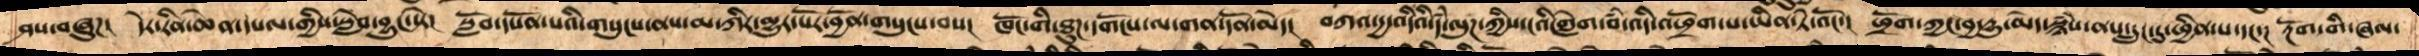ཤས་བཞུཌ།  དེར་རིནཆེན་དཔལ་གྱིས་སླེབ་བྱུང་སྟེ།  སློབ་དཔོན་པའི་གསུངས་ནས་མ་ཀིར་མྱུར་པོར་བྱོན་གསུངས་བས།  ཁོང་གི་ཐུཌ་དགོངས་ལ་གན་དོན་མེད།  བཀའ་དྱ་འདིའི་དཾ་ལུཌ་ཀྱིས་ངའི་གླེགས་བཾ་འདི་འཕྲོག་པ་ཡིན་ཏེ་འོང་།  ཕྲོག་ཀྱང་བྱ་དྱུ་མེད་སྙཾ་ནས་དྲུང་དུ་ཕྱིན་པ་དང་།  རྔོག་གི་ཞལ་
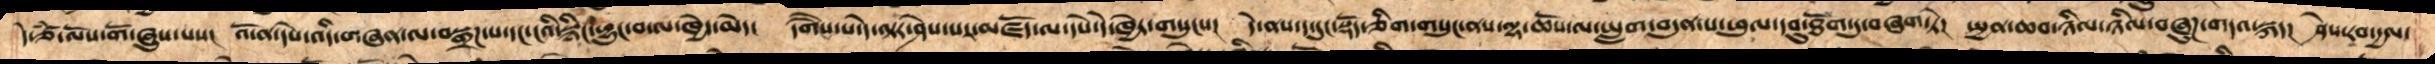དེ་ཙཾ་ལོས་གོ་ཞུས་པས།  འོ་ན་དཔེ་འདི་གཞན་ལ་བསྒྲཌ་པ་དང་ངའི་སྙིང་ཕྱུང་བ་ལ་ཁྱེད་མེད།  དགཻས་པ་དེ་ལྟར་ཤེས་པར་མཛོད་ལ་དཔེ་དེ་ཁྱེར་གསུངས།  དེ་ནས་ད་དུང་སྡོད་ཅིག་གསུངས་ནས་ལྷ་ཆོས་ལ་ཡླག་བདུན་པ་ཕུལ་དབུ་ཐོག་དུ་བཞག་ཏེ།  སྤྱན་ཆབ་ཉིལ་ཉིལ་བཞུཌ་གདའ་སྐད།  ཤེས་རབ་དྱལ་
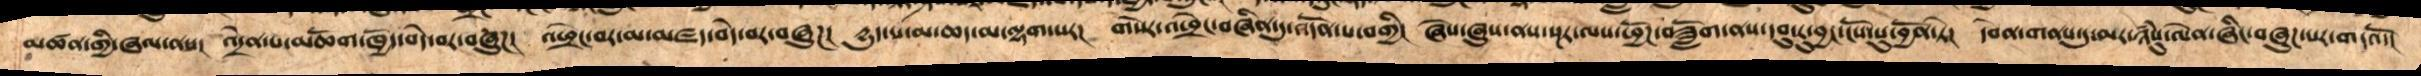མཚན་གྱི་ཞལ་ནས།  འདྲེན་པ་མཆོག་ཁྱོད་བདེ་བར་བཞུཌ།  འཕྲེང་བར་མ་མཛད་བདེ་བར་བཞུཌ།  དྱུད་པ་མ་ཆད་མ་ལྷག་པར།  གསེར་འཕྲེང་བཞིན་དུ་འདོན་པ་བགྱི།  ཞེས་ཞུས་ནས་སྔར་ལས་ཕྱོཌ་བཟློག་ནས་དབུ་རུ་བྱང་ངོས་སུ་བྱོན་ཏེ།  དབེན་གནས་དུ་མར་ཉཾསུ་ལེན་ཞིང་བཞུཌ་པར་གདའོ་།
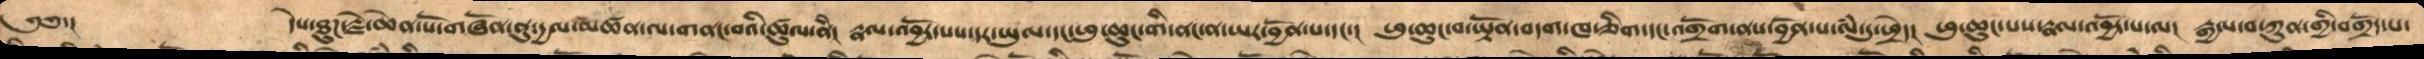༄༅་།        དེས་ཐུཌ་རྗེ་ཆེན་པོ་གཞོན་ནུ་དྱལ་མཚན་ལ་གནང་བའི་ཚུལ་ནི།  རྣལ་འབྱོར་པས་དར་ཡུལ་དང་ཕུ་ཆུང་གི་ནང་ན་ཡར་བྱོན་པ་དང་།   ཕུ་ཆུང་བ་ཡྟོན་བདག་ཁ་ཅིག་དང་འགྲོག་ནས་བྱོན་པ་ལཾ་དུ་ཕྲེད།  ཕུ་ཆུང་པས་རྣལ་འབྱོར་པ་ལ།  རྒྱལ་བ་ཀུན་གྱི་བགྲོད་པ་
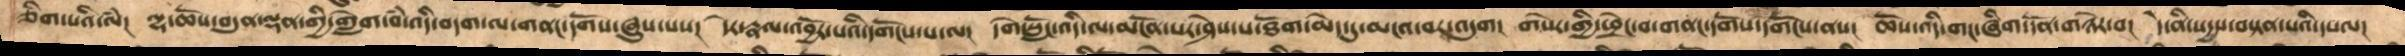ཅིག་པའི་ལཾ།  ལྷ་ཆོས་བདུན་ལྡན་གྱི་གླེག་བཾ་འདི་བདག་ལ་གནང་དགོས་ཞུས་པས།  དེར་རྣལ་འབྱོར་པའི་དགོངས་པ་ལ།  དགེ་སློང་འདི་ལ་མངོན་པར་ཤེས་པ་ཐོག་མེད་དུ་མངའ་བར་འདུག།  གསེར་གྱི་ཕྲེང་བ་གནང་དགོས་དགོངས་ནས།  ཆོས་འདི་གང་ཞིག་དོན་གཉེར་བ།  དེ་ནི་སདྱས་བསྟན་པའི་དཔལ།
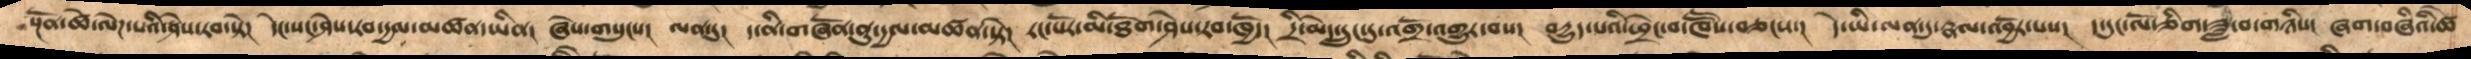སྔོན་ཚེ་ལེཌ་པའི་ཤེས་རབ་སྟེ།  དེང་སང་ཤེས་རབ་དྱལ་མཚན་ཡིན།  ཞེས་གསུངས།  ལན་དུ།  ད་ནི་གཞོན་ནུ་དྱལ་མཚན་ཏེ།  རང་པོར་མི་ཐོག་ཤེས་རབ་ཁྱོད།  དྲི་མེད་དྲུང་དུ་འགྲོ་འགྱུར་བས།  བདྱུད་པའི་ཕྲེང་བ་ཁཽས་བཅངས་།  དེ་ཡི་ལན་དུ་རྣལ་འབྱོར་པས།  ད་དུང་ལོ་ཅིག་ཟླ་བ་གཉིས།  ཞག་བཞིའི་ཚེ་
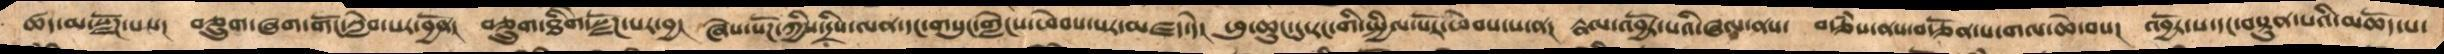ཚད་མ་སྫོཌ་པས།  བཅྲུག་ཞག་གོང་སླེབ་པར་བྱོན།  བཅྲུག་ཐིག་ལེ་སྫོཌ་པར་བྱ།  ཞེས་སོཌ་ཀྱི་དྲིས་ལན་དང་གསུང་གླེངས་ཕེབས་པར་མཛད་དེ།  ཕུ་ཆུང་དུ་རང་གི་སྤྱིལ་པོར་ཕེབས་པ་ན།  རྣལའབྱོར་པའི་ཞལ་ནས།  བརྩཾས་ནས་བརྩོན་པ་གལ་ཆེ་བས།  འབྱོར་པ་དང་བསྟུན་པའི་མཆོད་པ་
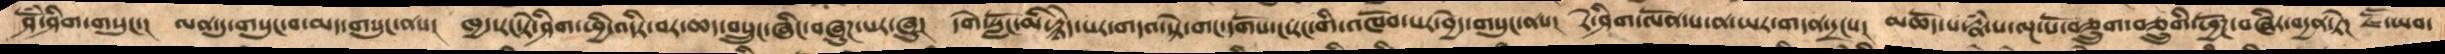ཤོཾ་ཤིག་གསུངས།  ལན་དུ་གསུང་བ་མད་གསུངས་ནས།  ཁྱེད་རང་རེ་ཤིག་ཕྱི་འདིར་བར་ཆད་བསྲུང་ཞིང་བཞུཌ་པར་ཞུ།  དགེ་སློང་མི་རྙེད་པར་གདའ་སྟེ་གང་དགོས་ང་རང་གིས་འཁོབ་པར་བྱེད་གསུངས་ནས།  རེ་ཞིག་ལོན་པ་ན་ཡར་གདན་དྲངས།  མཆོད་པ་རྣཾ་པ་ལྔ་པོ་བཅྲུག་བཅྲུགི་ཕྱོཌ་བཞིར་བདྱན་ཏེ།  ཇཽ་ཡབ་
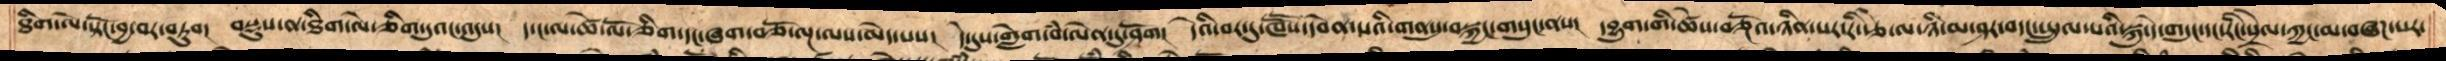ཐིག་ལེ་སྟོང་བྱ་བར་བཏུབ།  བསྡུས་ན་ཐིག་ལེ་ཅིག་དུའང་འདུས།  ད་ང་ལ་ཚེ་ལོ་ཅིག་དང་ཞག་བཅོ་ལྔ་ལས་མེད་པས།  དེ་དུས་གླེག་བཾ་ལེན་དུ་ཤོག  དེའི་བར་དུ་ཁཽས་དབེན་པའི་གནསུ་བསྐྱང་གསུང་ནས།  དབྱུག་གི་ཚེས་བཅྔོའ་ཉིན་པར་རི་རྩེ་ལ་ཉི་མ་ཤར་བ་དང་སྤྲུལ་པའི་སྐུ་དེ་གདུང་དང་རིང་སྲེལ་ཀྱང་མ་བཞཌ་པར་
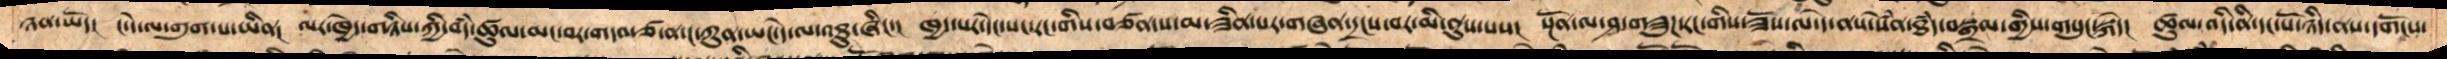ཉན་ཡོད།  ང་དེ་ལ་གུག་པ་ཡིན།  ལར་ཁྱེད་གཉིས་ཀྱི་བདཾ་ཚུལ་མང་བར་གདའ་ཙ་ན་ཀུན་ཡང་དེ་ལ་འཐུ་ཞིང་།  ཁྱད་པར་དེང་སང་རང་གིས་བཙན་ས་མ་ཟིན་པར་གཞན་དྲངས་བར་མི་ནུས་པས།  སྔོན་ལ་ཤ་གཟུཌ་རང་གིས་ཟོས་ལ་དེ་ནས་སེནཾ་ཐཾད་བསྒྲལ་གྱིས་གསུང་སྐདེ།   ཚུལ་འདི་ནི་དང་པོ་ཉིད་ནས་དགོངས་
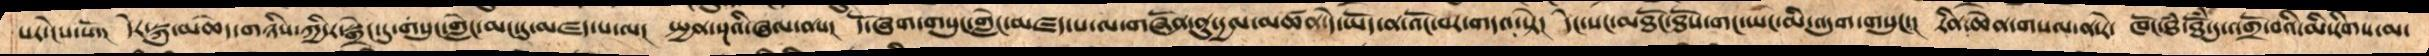པར་ངེས་སོ།  དེར་སྐུ་མཆེད་གཉིས་ཀྱི་ར་སྒྲེང་དུ་གསུང་གླེང་མང་དུ་མཛད་པ་ལ།  སྤྱན་སྔའི་ཞལ་ནས།  དོ་ཞག་གསུང་གླེང་མཛད་པ་ལ་གཞོན་ནུ་དྱལ་མཚན་དེ་ཡོད་ན་འོང་བར་གདའ་སྟེ།  དེང་སང་མཐོང་ཐོས་གང་ཡང་མི་འདུག་གསུང་།  རིན་ཆེན་གསལ་ན་རེ་  ཁོང་ཐཾ་ཐོཾ་དུ་འགྲོ་བའི་མི་རིགས་མ་
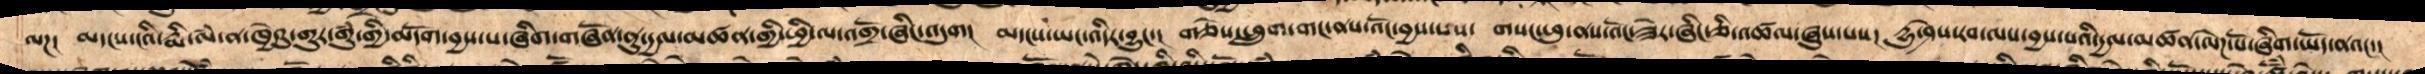ལཌ།  མདངས་ངའི་རྨི་ལཾ་ན་ཁྱེའུ་གུར་གུཾ་གྱི་མདོག་བྱས་པ་ཞིག་གཞོན་ནུ་དྱལ་མཚན་གྱི་ཕྱི་ལ་འགྲོ་ཞིང་འདུག།  མདངས་ཡང་འདིར་བྱུང་།  གཅེས་ཕྲུག་གང་ནས་འོང་བྱས་པས།  གསང་ཕུ་ནས་འོང་ཟེར་ཞིང་ཅི་འཚལ་ཞུས་པས།  དྱུ་ཤེས་རབ་ལས་བྱས་པའི་དྱལ་མཚན་ལེཌ་པོ་ཞིག་ཡོད་ནའང་།
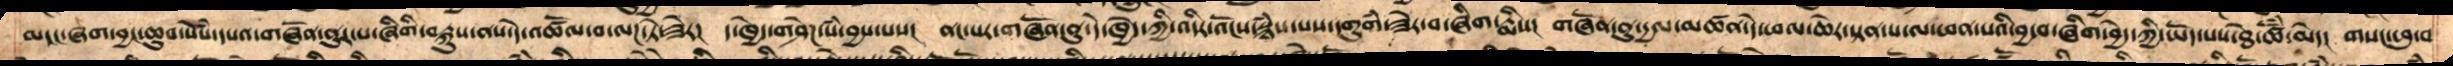མདང་ཞག་བྱང་ཆུབ་སེཾས་དཔའ་གཞོན་ནུར་པ་ཞིགི་བརྐུས་ནས་དེ་འཚོལ་བ་ལཌ་ཏེ་ཟེར།  ད་ཁྱེད་གཤེཌ་སཾ་བྱས་པས།  ནང་པར་གཞོན་ནུ་དེ་ཁྱེད་ཀྱི་འདིར་འོང་སྙཾ་པས་དགུགཾ་ཟེར་བ་ཞིག་རྨིས།  གཞོན་ནུ་དྱལ་མཚན་དེ་ཕལ་ཆེར་བསྟན་པ་ལ་ཕན་པའི་བྱ་བ་ཞིག་བྱེད་ཀྱི་ཡོད་པར་ཐེ་ཚོཾ་མེད།  གསང་ཕུ་བ
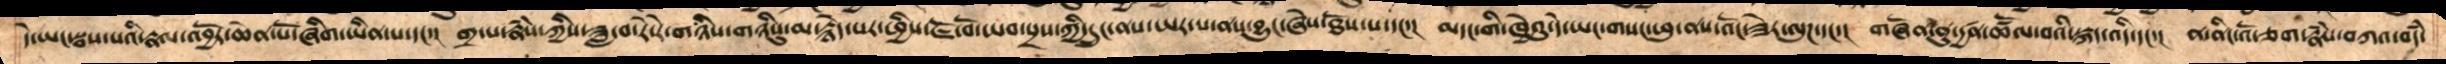དེ་ཡང་སྦས་པའི་རྣལ་འབྱོར་ཆེན་པོ་ཞིག་ཡིན་པ་དང་།  གྲ་པ་རྣཾས་ཀྱིས་ཟླ་བ་རེ་རེ་གཉིས་གཉིསུ་མ་རྙེད་པར་ཕྱིས་ཇོ་བོ་ཡབ་སྲས་ཀྱི་དྲུང་ནས་ཡར་པ་ནས་བྱུང་ཞེས་ཐོས་པ་དང་།  མདང་གི་ཁྱེའུ་དེ་ཡང་གསང་ཕུ་ནས་འོང་ཟེར་ལུཌ་དང་།  གཞོན་ནུ་དྱཚན་འཚོལ་བའི་སྐད་འདི་དང་།  ན་ནིང་འོ་ཅག་རྣཾས་བཀའ་བདཾ་
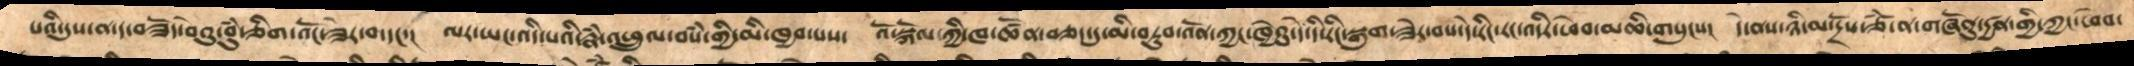པའི་དུས་ན་ད་གཟོད་བེའུ་བུཾ་ཅིག་འོང་ཟེར་བ་དང་།  ལར་ཡང་འདི་པའི་རྣཾ་འཕྲུལ་བསཾ་གྱིས་མི་ཁྱབ་པས།  འོ་སྐོལ་ཀྱི་ཁ་ཚོན་བཅད་དུ་མི་བཏུབ་འོན་ཀྱང་ཁྱེའུ་དེ་དི་རིང་སྒུག་ཟེར་བས་དེ་རིང་རང་འདིར་ཕེབས་མཆི་གསུངས།  དེ་ནས་ཉི་མ་དྲོས་ཙཾ་ན་གཞོནུ་དྱཚན་གྱི་ཀྱང་ཕེབ་
